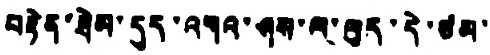བརྟེན་ཐེམ་དུད་འགའ་ཤས་ལ་ལུད་དེ་ཙམ་་
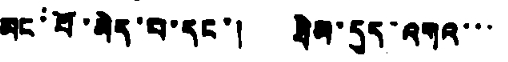མང་པོ་མེད་པ་དང་། ཐེམ་དུད་འགའ་་་
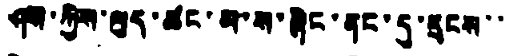ཤས་ཀྱིས་ལུད་ཚང་མ་ས་ཞིང་ནང་དུ་དྲངས་་
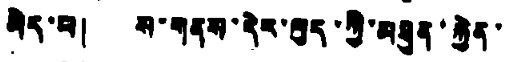མེད་པ། ས་གནས་དེར་ལུད་ཀྱི་མཐུན་རྐྱེན་
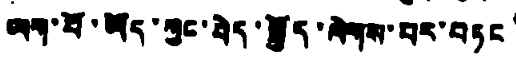ཡག་པོ་ཡོད་ཀྱང་བེད་སྤྱོད་ལེགས་པར་བཏང
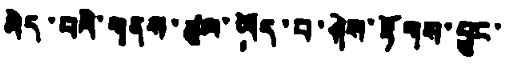མེད་པའི་གནས་ཚུལ་ཡོད་པ་ཤེས་རྟོགས་བྱུང་
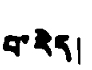བ་རེད།
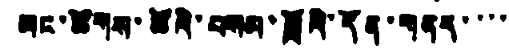མང་ཚོགས་ཚོའི་བསམ་བློའི་དོན་གནད་་་་
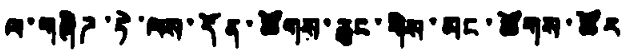ལ་གཞིཌ་ཏེ་ལས་དོན་ཚོགས་ཆུང་གིས་མང་ཚོགས་ཚོར
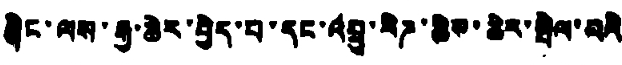ཞིང་ལས་རྒྱ་ཆེར་བྱེད་པ་དང་འབྲུ་རིཌ་ཆེས་ཆེར་སྤེལ་བའི
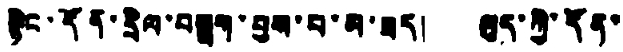སྙིང་དོན་དྲིལ་བསྒྲག་བྱས་པ་མ་ཟད། ལུད་ཀྱི་དོན་
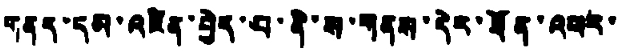གནད་དམ་འཛིན་བྱེད་པ་ནི་ས་གནས་དེར་ཐོན་འཕར་
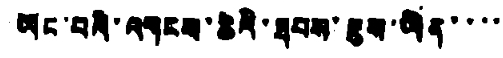ཡོང་བའི་འགངས་ཆེའི་ཐབས་ཇུས་ཡིན་་་་་
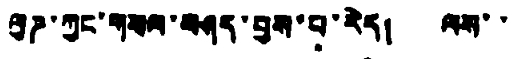ལུཌ་ཀྱང་གསལ་བཤད་བྱས་པ་རེད། ལས་་
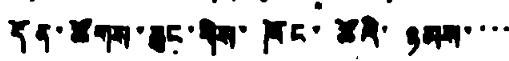དོན་ཚོགས་ཆུང་གིས་ཁོང་ཚོའི་ཉམས་་་་་
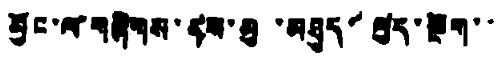མྱོང་ལ་གཞིགས་ནས་མུ་མཐུད་ལུད་སྔག་་་
